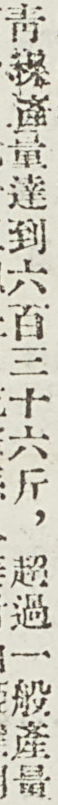靑稞產量達到六百三十六斤，超過一般產量
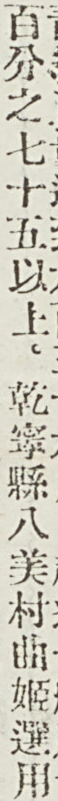百分之七十五以上。乾寧縣八美村曲姬選用
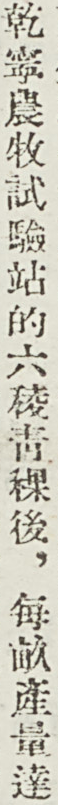乾寧農牧試驗站的六稜靑稞後，每畝產量達
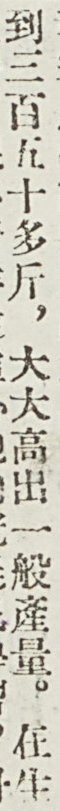到三百五十多斤，大大高出一般產量。在生
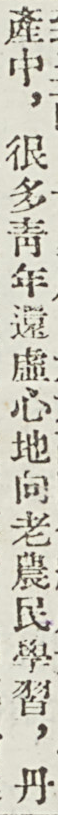產中，很多靑年還虛心地向老農民學習，丹
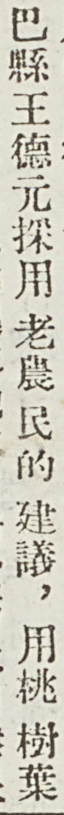巴縣王德元採用老農民的建議，用桃樹葉
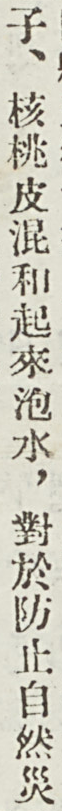子、核桃皮混合起來泡水，對於防止自然災
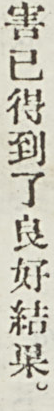害已得到了良好結果。
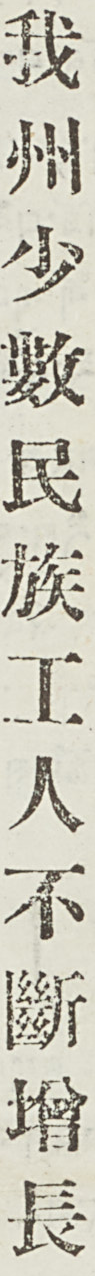我州少數民族工人不斷增長
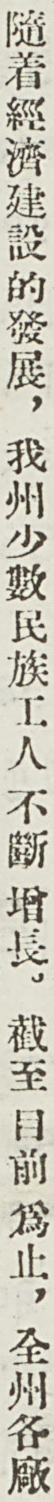隨着經濟建設的發展，我州少數民族工人不斷增長，截至目前爲止，全州各廠
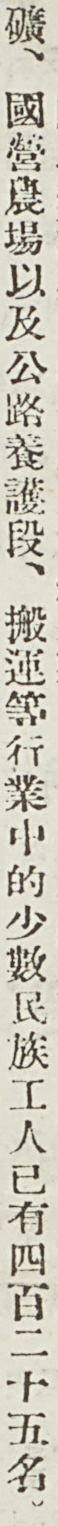礦、國營農場以及公路養護段、搬運等行業中的少數民族工人已有四百二十五名。
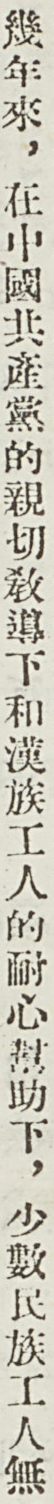幾年來，在中國共產黨的親切敎導下和漢族公認的耐心幫助下，少數民族工人無
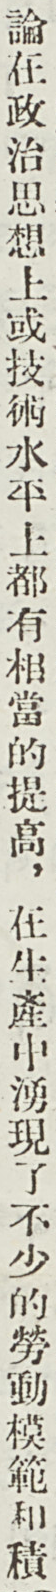論在政治思想上或技術水平上都有相當的提高，在生產中湧現了不少的勞動模範和積
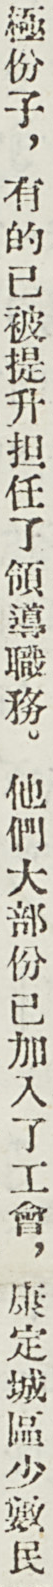極份子，有的已被提升担任了領導職務。他們大部份已加入了工會，康定城區少數民
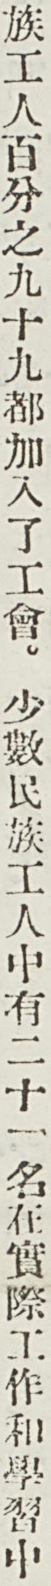族工人百分之九十九都加入了工會。少數民族工人中有二十一名在實際工作和學習中
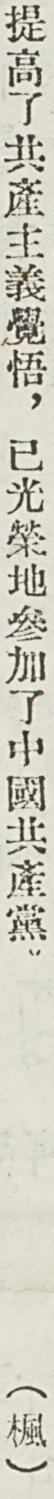提高了共產主義覺悟，已光榮地參加了中國共產黨。 （楓）
